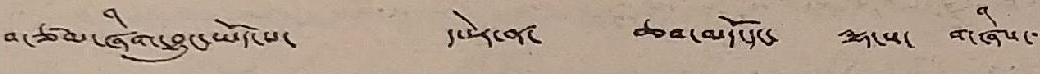བ་ཙམ་ཞིག་བྱུང་ཡོད་པ་ དཔེར་ན་ ཆབ་མདོ་དང་ ལྷ་ས་ གཞིས་་
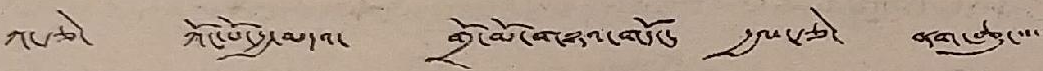ཀ་རྩེ་ ཀོང་པོ་རྒྱ་མདའ་ གྲོ་མོ་གཉའ་གདོང་ རྒྱལ་རྩེ་ ནག་ཆུ་་་་་
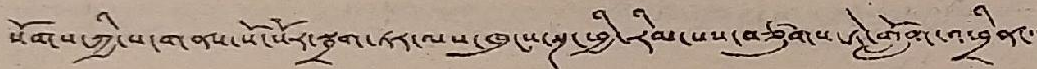སོགས་ཀྱི་ས་གནས་སོ་སོར་སྦྲག་ཏར་ལས་ཁུངས་སྔ་ཕྱི་རིམ་པས་བཙུགས་ཏེ་གློག་འཕྲིན་་་
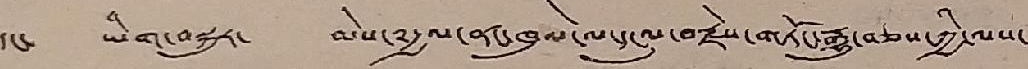དང་ ཡིག་བསྐུར་ མེས་༸རྒྱལ་ནང་ཁུལ་ལ་དངུལ་བརྗེས་གཏོང་རྒྱུ་བཅས་ཀྱི་ལས་
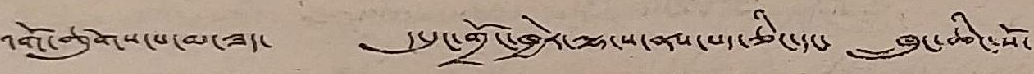འགོ་ཚུགས་པ་མ་ཟད་ ད་དུང་གྲོང་ཁྱེར་ལྷ་ས་ནས་པད་ཅིང་ ཁྲུང་ཆིང་སོ་
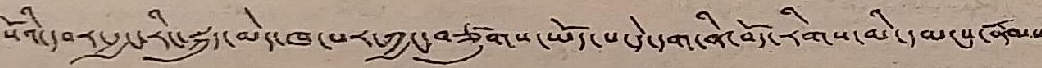སོའི་དབར་རྒྱང་རིང་སྐུད་མེད་ཁ་པར་ཀྱང་བཙུགས་ཡོད་པ་དེ་དག་ནི་བོད་རིགས་མི་དམངས་རྣམས་
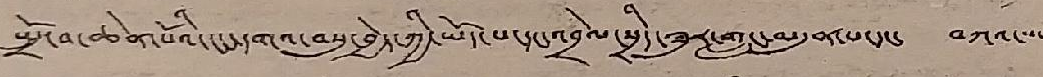སྤྲོ་བ་ཆེན་པོའི་ངང་དགའ་བསུ་བྱེད་ཀྱི་ཡོད་པ་དང་འབྲེལ་སྲིད་ཟུར་གླང་མདུན་པ་དང་ བཀའ་་
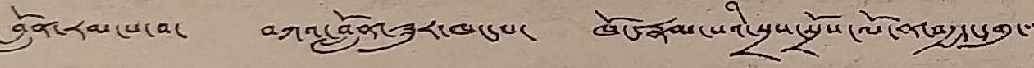བློན་རམ་པ་བ་ བཀའ་བློན་ཟུར་ཁང་པ་ ཁོང་རྣམ་པའི་སྲས་སྲོས་ལོ་ན་བརྒྱད་དགུ་་
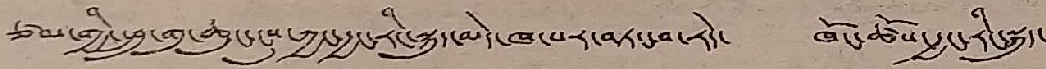ཙམ་གྱི་ཕྲུ་གུ་ཆུང་ངུས་ཀྱང་རྒྱང་རིང་སྐུད་མེད་ཁ་པར་བཏང་བ་རེད་ ཁོང་ཚོས་རྒྱང་རིང་སྐུད་
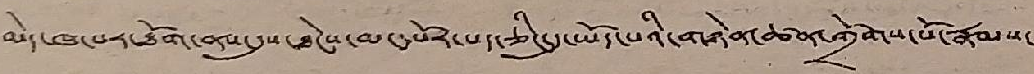མེད་ཁ་པར་ཐོག་ནས་དུས་ཐེངས་མང་པོར་པད་ཅིང་དུ་ཡོད་པའི་གཉེན་ཚན་གྲོགས་པོ་རྣམས་
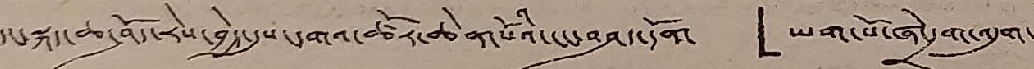དང་སྐད་ཆ་ཤོད་རེས་བྱེད་དུས་དགའ་ཚོར་ཆེན་པོའི་ངང་བཤད་དོན་ 「ཡག་པོ་ཞེ་དྲག་འདུག་
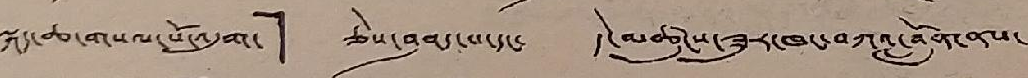སྐད་ཆ་གསལ་པོ་འདུག་」 ཅེས་བཤད་པ་དང་ དེ་མཚུངས་ཟུར་ཁང་བཀའ་བློན་ནས་
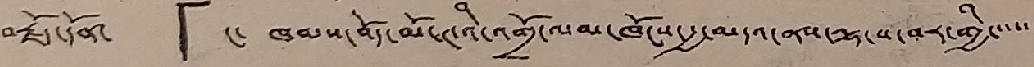བརྗོད་དོན་ 「ང་ ཁམས་བོད་མོ་ཊའི་འགྲོ་ལམ་ཁོངས་རྒྱ་མདའ་ནས་ལྷ་ས་བར་གྱི་་་་་་
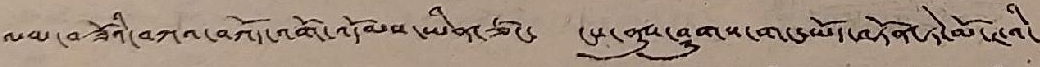ལམ་བཟོའི་བཀའ་བཀོད་འགོ་འདོམས་ཡིན་ཙང་ ངས་ནུས་ཤུགས་གང་ཡོད་བཏོན་ཏེ་མོ་ཊའི་
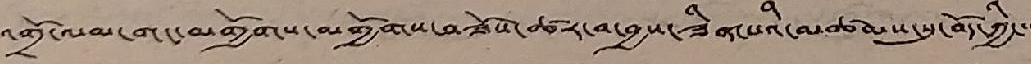འགྲོ་ལམ་གང་མགྱོགས་མགྱོགས་བཟོས་ཚར་བ་བྱས་ཟིན་པའི་མཚམས་སུ་བོད་ཀྱི་་་
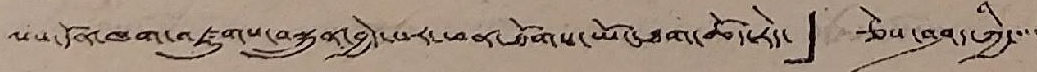ལས་དོན་ཁག་འཛུགས་བསྐྲུན་བྱེད་པར་ཕན་ཐོགས་ཡོང་ཐག་ཆོད་རེད་」 ཅེས་བཤད་ཀྱི་་་་་
